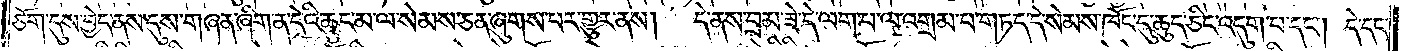ཅོག་དུས་བྱེད་ནས་དུས་གཞན་ཞིག་ན་དེའི་ཆུང་མ་ལ་སེམས་ཅན་ཞུགས་པར་གྱུར་ནས། དེ་ནས་བྲམ་ཟེ་དེ་ལག་པ་ལ་འགྲམ་པ་གཏད་དེ་སེམས་ཁོང་དུ་ཆུད་ཅིང་འདུག་པ་དང༌། དེ་དང་
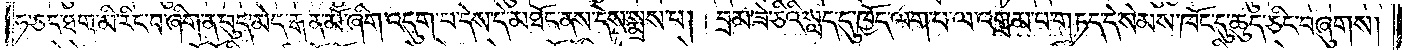ཧ་ཅང་ཐག་མི་རིང་བ་ཞིག་ན་བུད་མེད་རྒན་མོ་ཞིག་འདུག་པ་དེས་དེ་མཐོང་ནས་དེས་སྨྲས་པ། བྲམ་ཟེ་ཅིའི་སླད་དུ་ཁྱོད་ལག་པ་ལ་འགྲམ་པ་གཏད་དེ་སེམས་ཁོང་དུ་ཆུད་ཅིང་བཞུགས།
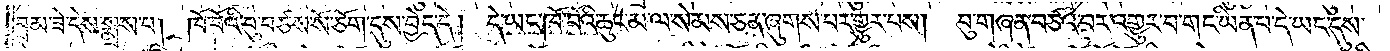བྲམ་ཟེ་དེས་སྨྲས་པ། ཁོ་བོའི་བུ་བཙས་སོ་ཅོག་དུས་བྱེད་དེ། དེ་ཡང་ཁོ་བོའི་ཆུང་མ་ལ་སེམས་ཅན་ཞུགས་པར་གྱུར་པས། བུ་གཞན་བཙའ་བར་འགྱུར་བ་གང་ཡིན་པ་དེ་ཡང་དུས་
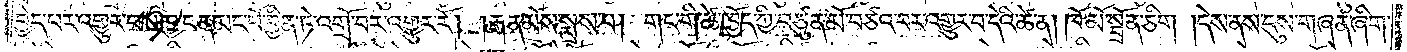བྱེད་པར་འགྱུར་བས་མྱ་ངན་མང་པོ་བྱིན་ཏེ་འགྲོ་བར་འགྱུར་རོ། །རྒན་མོས་སྨྲས་པ། གང་གི་ཚེ་ཁྱོད་ཀྱི་བཙུན་མོ་བཙའ་བར་འགྱུར་བ་དེའི་ཚེ་ན། ཁོ་མོ་སྦྲོན་ཅིག །དེས་ནས་དུས་གཞན་ཞིག་
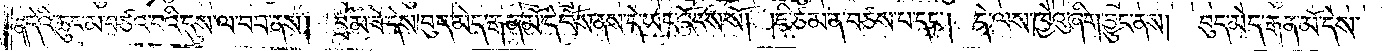ན་དེའི་ཆུང་མ་བཙའ་བའི་དུས་ལ་བབ་ནས། བྲམ་ཟེ་དེས་བུད་མེད་རྒན་མོ་དེ་བོས་ནས་དེ་ཡང་འོངས་སོ། །ཇི་ཙམ་ན་བཙས་པ་དང༌། དེ་ལས་ཁྱེའུ་ཞིག་བྱུང་ནས། བུད་མེད་རྒན་མོ་དེས་
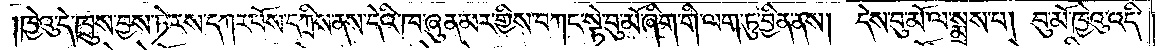ཁྱེའུ་དེ་ཁྲུས་བྱས་ཏེ་རས་དཀར་བོས་དཀྲིས་ནས་དེའི་ཁ་ཞུན་མར་གྱིས་བཀང་སྟེ་བུ་མོ་ཞིག་གི་ལག་ཏུ་བྱིན་ནས། དེས་བུ་མོ་ལ་སྨྲས་པ། བུ་མོ་ཁྱེའུ་འདི་
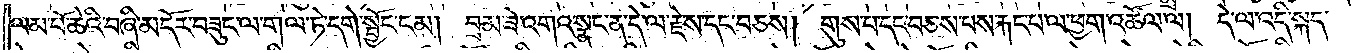ལམ་པོ་ཆེའི་བཞི་མདོར་བཟུང་ལ་གལ་ཏེ་དགེ་སྦྱོང་ངམ། བྲམ་ཟེ་འགའ་སྣང་ན་དེ་ལ་རྗེས་དང་བཅས། གུས་པ་དང་བཅས་པས་རྐང་པ་ལ་ཕྱག་འཚལ་ལ། དེ་ལ་འདི་སྐད་
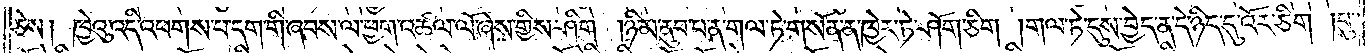ཅེས། ཁྱེའུ་འདི་འཕགས་པ་དག་གི་ཞབས་ལ་ཕྱག་འཚལ་ལོ་ཞེས་གྱིས་ཤིག །ཉི་མ་ནུབ་པ་ན་གལ་ཏེ་གསོན་ན་ཁྱེར་ཏེ་ཤོག་ཅིག །གལ་ཏེ་དུས་བྱེད་ན་དེ་ཉིད་དུ་འོར་ཅིག །བུ་
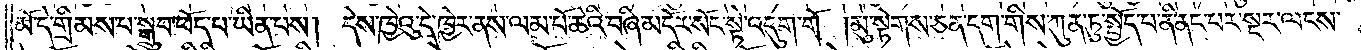མོ་དེ་གྲིམས་པ་སྒྲུབ་ཕོད་པ་ཡིན་པས། དེས་ཁྱེའུ་དེ་ཁྱེར་ནས་ལམ་པོ་ཆེའི་བཞི་མདོར་སོང་སྟེ་འདུག་གོ །མུ་སྟེགས་ཅན་དག་གིས་ཀུན་ཏུ་སྤྱོད་པ་ནི་ནང་པར་སྔར་ལངས་
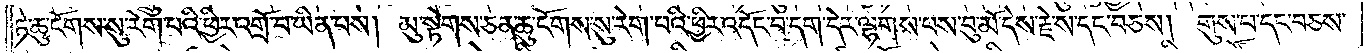ཏེ་ཆུ་ངོགས་སུ་རེག་པའི་ཕྱིར་འགྲོ་བ་ཡིན་པས། མུ་སྟེགས་ཅན་ཆུ་ངོགས་སུ་རེག་པའི་ཕྱིར་འདོང་བ་དག་དེར་ལྷགས་པས་བུ་མོ་དེས་རྗེས་དང་བཅས། གུས་པ་དང་བཅས་
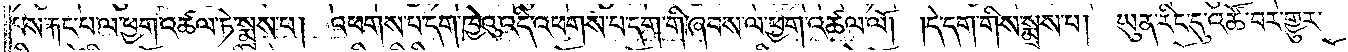པས་རྐང་པ་ལ་ཕྱག་འཚལ་ཏེ་སྨྲས་པ། འཕགས་པ་དག་ཁྱེའུ་འདི་འཕགས་པ་དག་གི་ཞབས་ལ་ཕྱག་འཚལ་ལོ། །དེ་དག་གིས་སྨྲས་པ། ཡུན་རིང་དུ་འཚོ་བར་གྱུར་
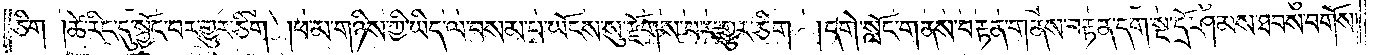ཅིག །ཚེ་རིང་དུ་སྐྱོང་བར་གྱུར་ཅིག །ཕ་མ་གཉིས་ཀྱི་ཡིད་ལ་བསམ་པ་ཡོངས་སུ་རྫོགས་པར་གྱུར་ཅིག །དགེ་སློང་གནས་བརྟན་གནས་བརྟན་དག་སྔ་དྲོ་ཤམས་ཐབས་བགོས་
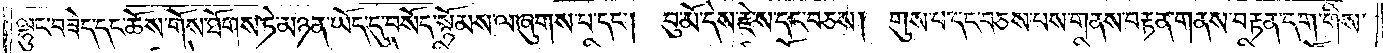ལྷུང་བཟེད་དང་ཆོས་གོས་ཐོགས་ཏེ་མཉན་ཡོད་དུ་བསོད་སྙོམས་ལ་ཞུགས་པ་དང༌། བུ་མོ་དེས་རྗེ་ས་དང་བཅས། གུས་པ་དང་བཅས་པས་གནས་བརྟན་གནས་བརྟན་དག་གིས་
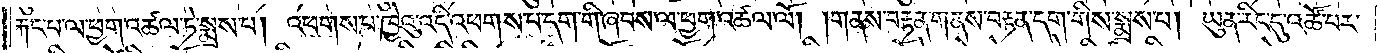རྐང་པ་ལ་ཕྱག་འཚལ་ཏེ་སྨྲས་པ། འཕགས་པ་ཁྱེའུ་འདི་འཕགས་པ་དག་གི་ཞབས་ལ་ཕྱག་འཚལ་ལོ། །གནས་བརྟན་གནས་བརྟན་དག་གིས་སྨྲས་པ། ཡུན་རིང་དུ་འཚོ་པར་
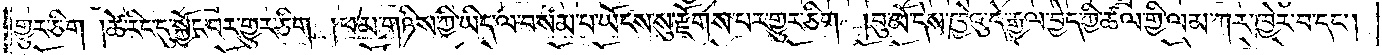གྱུར་ཅིག །ཚེ་རིང་དུ་སྐྱོང་བར་གྱུར་ཅིག །ཕ་མ་གཉིས་ཀྱི་ཡིད་ལ་བསམ་པ་ཡོངས་སུ་རྫོགས་པར་གྱུར་ཅིག །བུ་མོ་དེས་ཁྱེའུ་དེ་རྒྱལ་བྱེད་ཀྱི་ཚལ་གྱི་ལམ་ཀར་ཁྱེར་བ་དང༌།
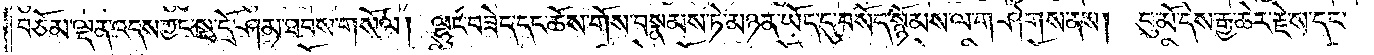བཅོམ་ལྡན་འདས་ཀྱང་སྔ་དྲོ་ཤམ་ཐབས་གསོལ། ལྷུང་བཟེད་དང་ཆོས་གོས་བསྣམས་ཏེ་མཉན་ཡོད་དུ་བསོད་སྙོམས་ལ་གཤེགས་ནས། བུ་མོ་དེས་རྒྱ་ཆེར་རྗེས་དང་
